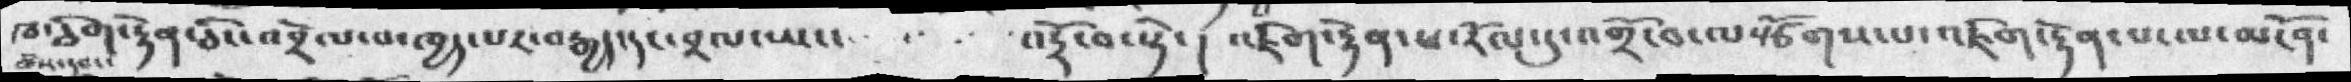ཁ་ཅིག་རྟེན་ཅིང་འབྲེལ་བ་ཁྱད་པར་བརྒྱད་དང་བྲལ་ཡང་   འདྲོ་བ་སྟེ་།   འཇིག་རྟེན་ཕ་རོལ་དུ་འགྲོ་བ་ལསྩོགས་པ་འཇིག་རྟེན་པ་ལ་མངོན་
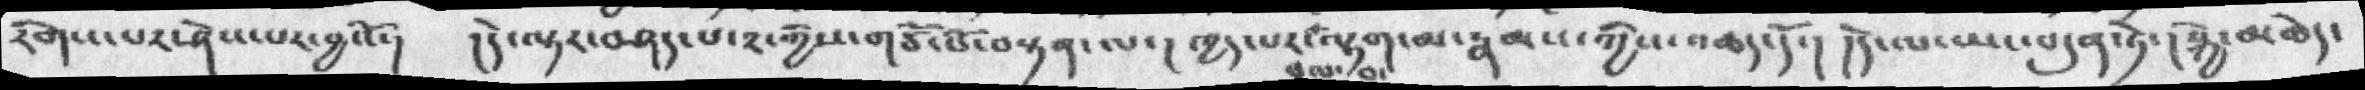རིགས་པར་ཤེས་པར་བྱའོ་།  །དེ་ལྟར་བཤད་པ་༢་གྱིས་གཙོ་བོ་བསྟན་ལ་།  ཁྱད་པར་ཐལ་བ་ལྷག་མ་རྣམས་ཀྱིས་འཆད་དོ་།  །དེ་ལ་ཡང་བདུན་ཏེ་།  སྐྱེ་མཆེད་
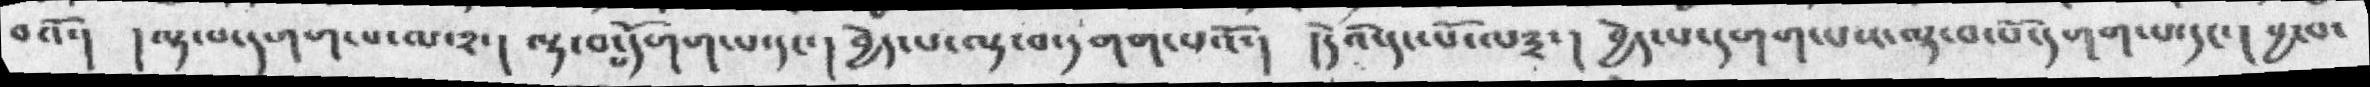བའོ་།  །ལྟ་བ་དགག་པ་ལ་༢་།  ལྟ་བས་དོགག་པ་དང་།  བྱེད་པ་ལྟ་བ་དགག་པའོ་།  །དེའི་དང་པོ་ལ༣་།  བྱེད་པ་དགག་པས་ལྟ་བ་པོ་དགག་པ་དང་། བྱ་བ་
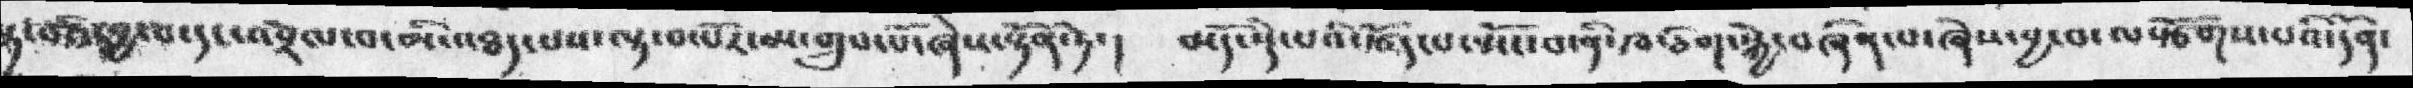ཏ་བཅིར་བྱ་བ་དང་འབྲེལ་བ་མི་འཐད་པས་ལྟ་བ་པོར་མ་གྲུབ་པོ་ཞེས་སྟོན་ཏེ་།    མདོ་སྟེ་པའི་རྩོད་པ་སྤོང་བ་ནི་ཁ་ཅིག་སྐྱེ་བཞིན་པ་ཞེས་བྱ་བ་ལསྩོགས་པའི་དོན་
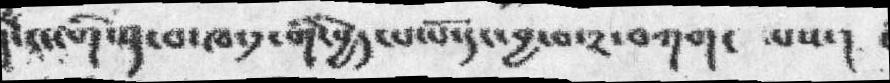དང་གི་ན་པ་ཁ་༡་གི་བྱེད་པ་པོ་དང་བྱ་བ་༢་ཀ་བཀག་  པས་།
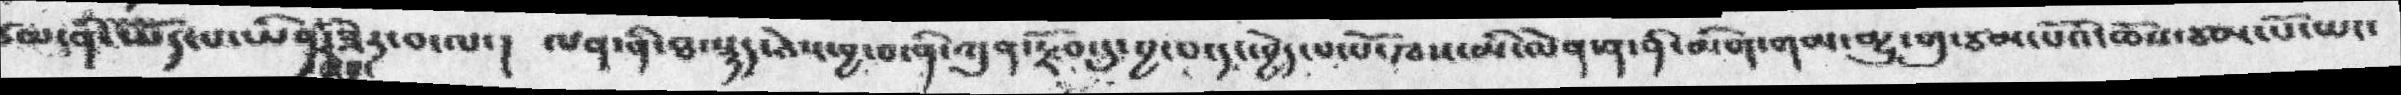མ་ནི་ཡོད་པ་ཡིན་ཞེས་ཟེར་བ་ལ་།    ལན་ནི་ཐ་སྙད་ཅེས་བྱ་བ་ནི་ཀུན་རྗོབ་དུ་བྱ་བ་དང་བྱེད་པ་པོ་ཁས་མི་ལེན་ན་ནི་མིག་གམ་མྱུ་གུ་ཙམ་པོའི་ཆོས་ཙམ་པོ་ཡང་
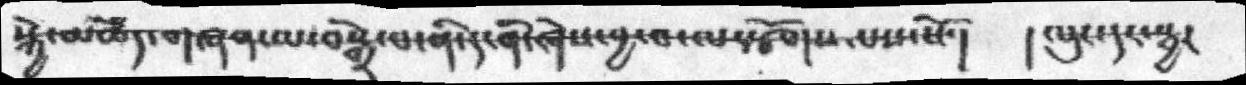སྐྱེ་མཆེད་གཞལ་བསྒྲེ་པ་ནི་དང་གི་ཞེས་བྱ་ལསྩོགས་པས་སོ་།  །ལུང་དང་སྦྱར
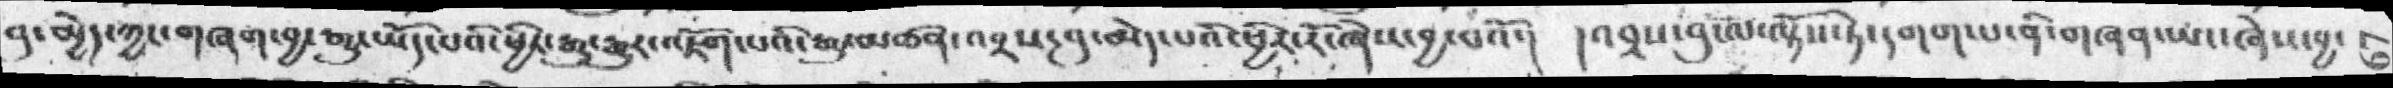ན་མྱེད་ཀྱང་གཞན་བྱ་རྒྱུར་ཡོད་པའི་ཕྱིར་རྒྱུར་འཇོག་པའི་རྒྱུ་མཚན་འབྲས་བུ་མེད་པའི་ཕྱིར་རོ་ཞེས་བྱ་བའོ་།   ། འབྲས་བུ་ལ་ལྟོས་ཏེ་དགག་པ་ནི་གཞན་ཡང་ཞེས་བྱ་
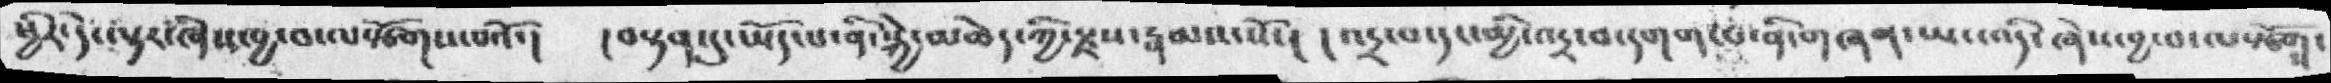ཕྱིར་དེ་ལྟར་ཞེས་བྱ་བ་ལསྩོགས་པའོ་།   ། བསྟན་དུ་ཡོད་པ་ནི་སྐྱེ་མཆེད་ཀྱི་སྫས་རྣམས་སོ་།   ། འདྲ་པ་དང་མྱི་འདྲ་བ་དགག་པ་ནི་གཞན་ཡང་འདི་ཞེས་བྱ་བ་ལསྩོགས་
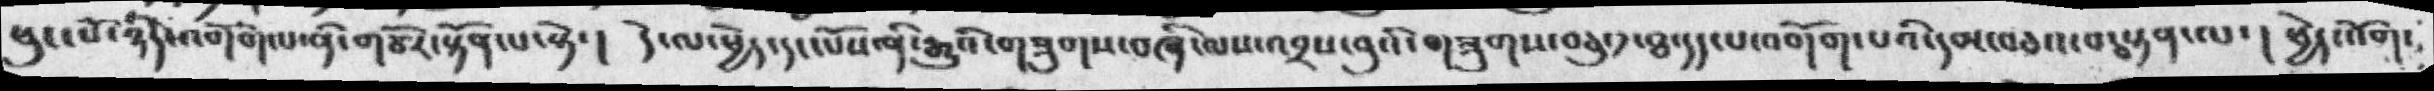ཕུང་པོ་ཉིད་འགོག་པ་ནི་གཙོར་སྟོན་པ་སྟེ་།  དེ་ལ་ཕྱེད་དང་པོས་ནི་རྒྱུའི་གཟུགས་བཞི་ལས་འབྲས་བུའི་གཟུགས་བཅུ༡་ཐ་དད་པ་འགོག་པའི་དམ་བཅའ་བ་བསྟན་ལ་། བྱེད་འོག་
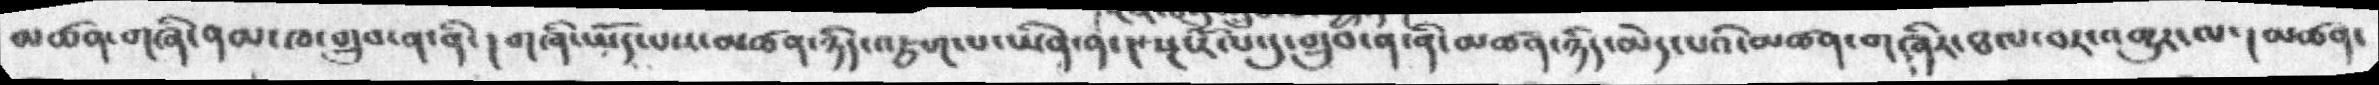མཚན་གཞི་ནམ་ཁ་གྲུབ་ན་ནི་།་  གཞི་ཡོད་པས་མཚན་ཉིད་འཇུག་པ་ཡིན་ད་སྔ་རོལ་དུ་གྲུབ་ན་ནི་མཚན་ཉིད་མེད་པའི་མཚན་གཞིར་ཐལ་བར་འགྱུར་ལ་།  མཚན་
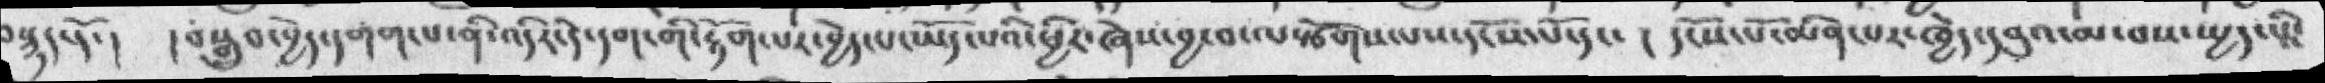བསྙད་དོ་།   །བསྒྲུབ་བྱེད་དགག་པ་ནི་འདིར་དེ་དབང་གི་རྟོག་པར་བྱེད་པ་ཡོད་པའི་ཕྱིར་ཞེས་བྱ་བ་ལསྩོགས་པས་དངོས་པོ་དང་།   དངོས་པོ་མིན་པར་ཁྱེད་དབུའ་མ་བས་སྤྱད་པའི་
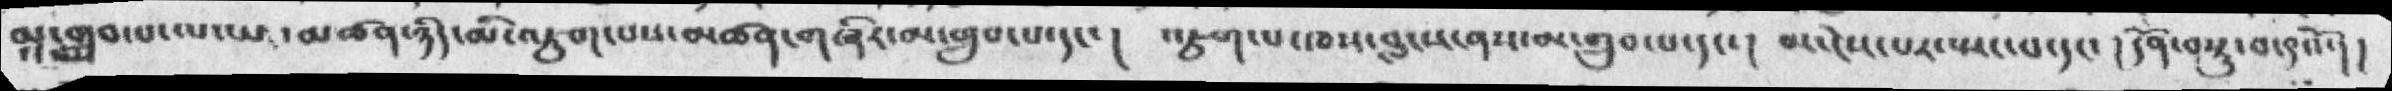མ་གྲུབ་པ་ལ་ཡང་མཚན་ཉིད་མི་འཇུག་པས་མཚན་གཞིར་མ་གྲུབ་པ་དང་།   འཇུག་པ་ཁས་བླངས་ནས་མ་གྲུབ་པ་དང་།  མ་ངེས་པར་སྤང་པ་དང་།  དོན་བསྡུ་བ་༤འོ་།།
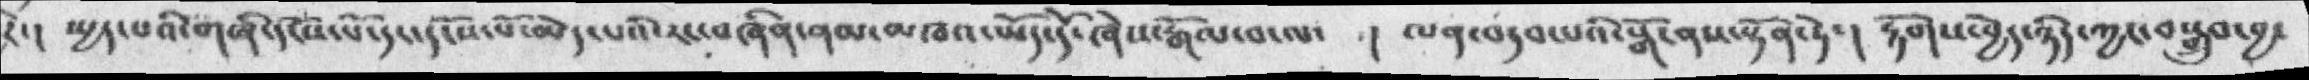རེ་།  སྤྱད་པའི་གཞི་དངོས་པོ་དང་དངོས་པོ་མེད་པའི་རང་བཞིན་ནམ་མཁའ་ཡོད་དོ་ཞེས་རྒོལ་བ་ལ་  །   ལན་བཏབ་པའི་སྒོ་ནས་སྟོན་ཏེ་།   རྟོགས་བྱེད་ཉིད་ཀྱང་བསྒྲུབ་བྱ་
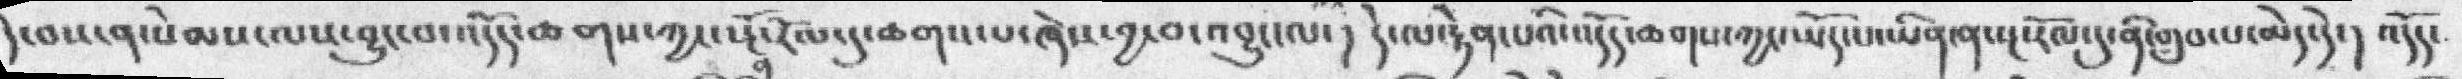དེ་བས་ན་སེམས་ལས་བྱུང་པ་འདོད་ཆགས་ཀྱང་སྔོན་རོལ་དུ་ཆགས་པ་ཞེས་བྱ་བ་འབྱུང་པ་།   དེ་ལ་རྟེན་པའི་འདོད་ཆགས་ཀྱང་ཡོད་པ་ཡིན་ན་སྔ་རོལ་དུ་ནི་གྲུབ་པ་མེད་དེ་།  འདོད་
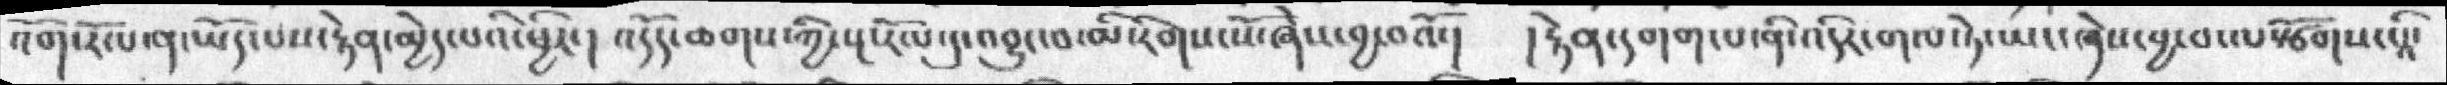འོག་རོལ་ན་ཡོད་པས་རྟེན་མྱེད་པའི་ཕྱིར་།  འདོད་ཆགས་ཀྱི་སྔོ་རོལ་དུ་འབྱུང་བ་མི་རིགས་སོ་ཞེས་བྱ་བའོ་།   །རྟེན་དགག་པ་ནི་འདིར་གལ་ཏེ་སྤང་ཞེས་བྱ་བ་ལསྩོགས་པའི་
